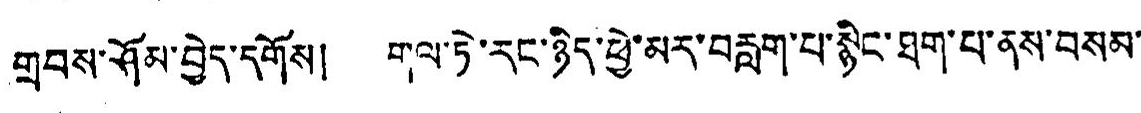གྲབས་ཤོམ་བྱེད་དགོས། གལ་ཏེ་རང་ཉིད་ཕྱེ་མར་བརླག་པ་སྙིང་ཐག་པ་ནས་བསམ་
